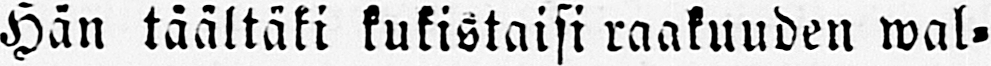Hän täältäki kukistaisi raakuuden wal-
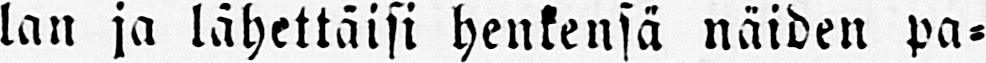lan ja lähettäisi henkensä näiden pa-
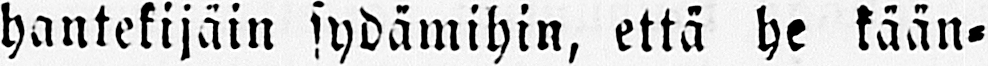hantekijäin sydämihin, että he kään-
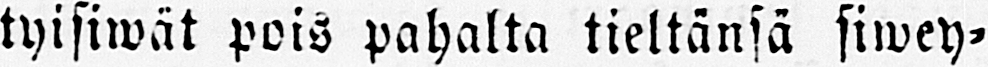tyisiwät pois pahalta tieltänsä siwey-
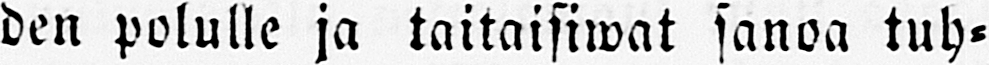den polulle ja taitaisiwat sanoa tuh-
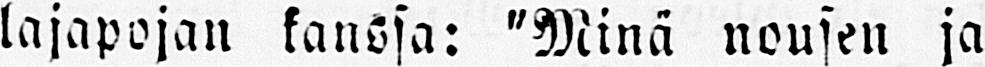lajapojan kanssa: "Minä nousen ja
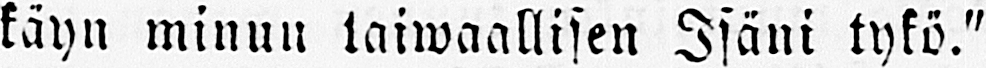käyn minun taiwaallisen Isäni tykö."
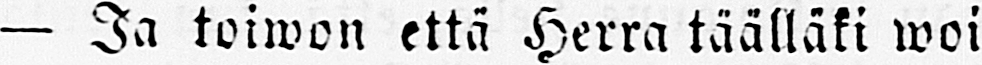— Ja toiwon että Herra täälläki woi
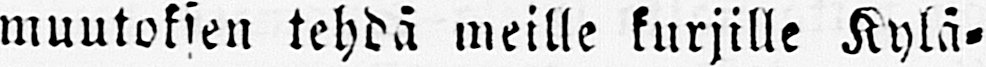muutoksen tehdä meille kurjille Kylä-
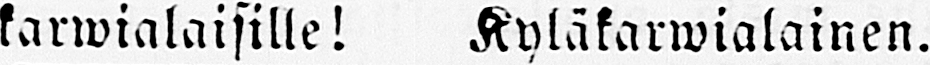karwialaisille! Kyläkarwialainen.
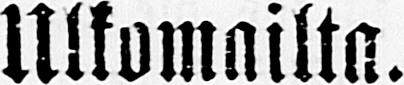Ulkomailta.
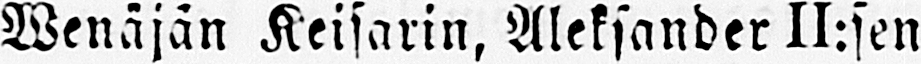Venäjän Keisarin, Aleksander II:sen
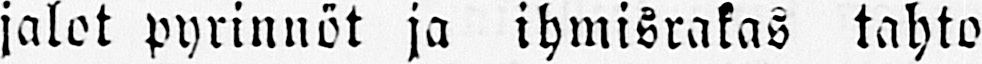jalot pyrinnöt ja ihmisrakas tahto
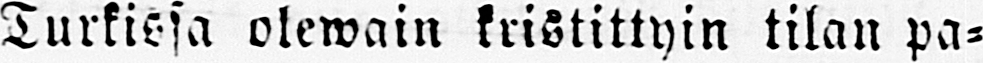Turkissa olewain kristittyin tilan pa-
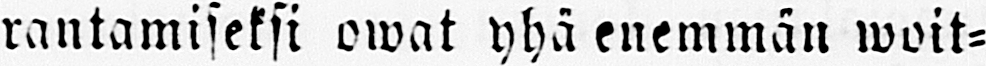rantamiseksi owat yhä enemmän woit-
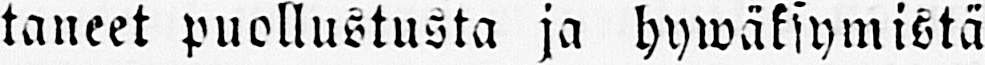taneet puollustusta ja hywäksymistä
